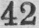42
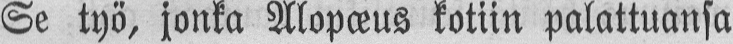Se työ, jonka Alopœus kotiin palattuansa
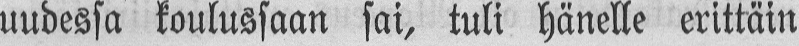uudessa koulussaan sai, tuli hänelle erittäin
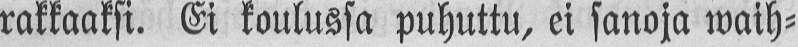rakkaaksi. Ei koulussa puhuttu, ei sanoja waih-
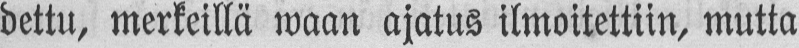dettu, merkeillä waan ajatus ilmoitettiin, mutta
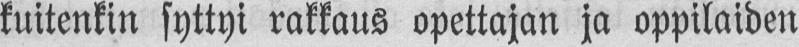kuitenkin syttyi rakkaus opettajan ja oppilaiden
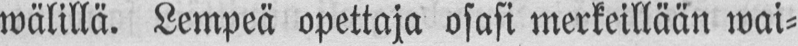wälillä. Lempeä opettaja osasi merkeillään wai-
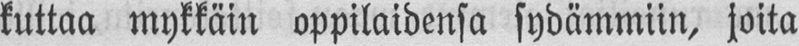kuttaa mykkäin oppilaidensa sydämmiin, joita
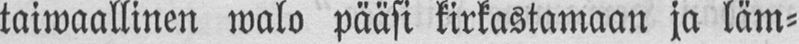taiwaallinen walo pääsi kirkastamaan ja läm-
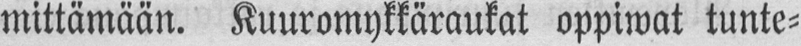mittämään. Kuuromykkäraukat oppiwat tunte-
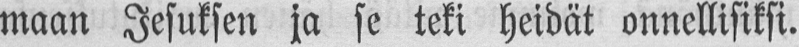maan Jesuksen ja se teki heidät onnellisiksi.
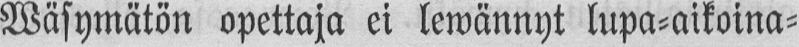Wäsymätön opettaja ei lewännyt lupa-aikoina-
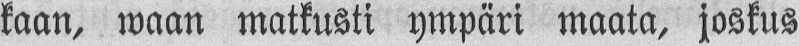kaan, waan matkusti ympäri maata, joskus
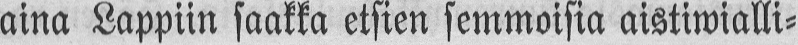aina Lappiin saakka etsien semmoisia aistiwialli-
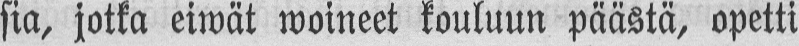sia, jotka eiwät woineet kouluun päästä, opetti
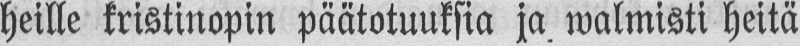heille kristinopin päätotuuksia ja walmisti heitä
